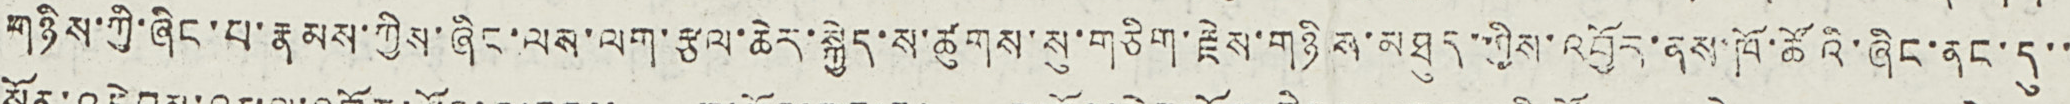གཉིས་ཀྱི་ཞིང་པ་རྣམས་ཀྱིས་ཞིང་ལས་ལག་རྩལ་ཆེར་སྐྱེད་ས་ཚུགས་སུ་གཅིག་རྗེས་གཉིས་མཐུད་ཀྱིས་འབྱོར་ནས་ཁོ་ཚོའི་ཞིང་ནང་དུ་་
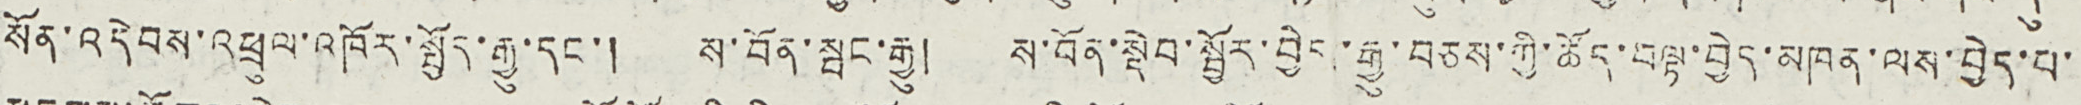སོན་འདེབས་འཕྲུལ་འཁོར་སྤྱོད་རྒྱུ་དང་། ས་བོན་སྦང་རྒྱུ། ས་བོན་སྡེབ་སྦྱོར་བྱེད་རྒྱུ་བཅས་ཀྱི་ཚོད་བལྟ་བྱེད་མཁན་ལས་བྱེད་པ་
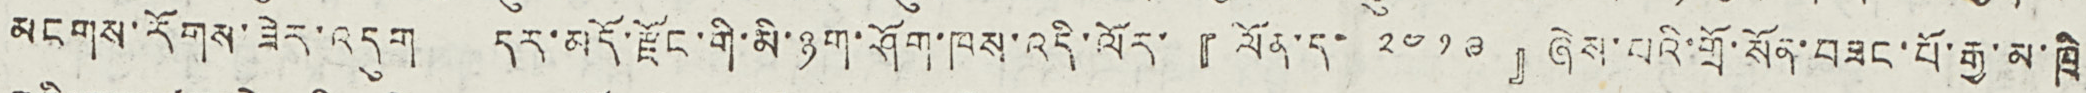མངགས་རོགས་ཟེར་འདུག དར་མདོ་རྫོང་གི་མི་ཉག་ཤོག་ཁས་འདི་ལོར་『ལོན་ད་ ༢༤༡༩ 』ཞེས་པའི་གྲོ་སོན་བཟང་པོ་རྒྱ་མ་ཁྲི
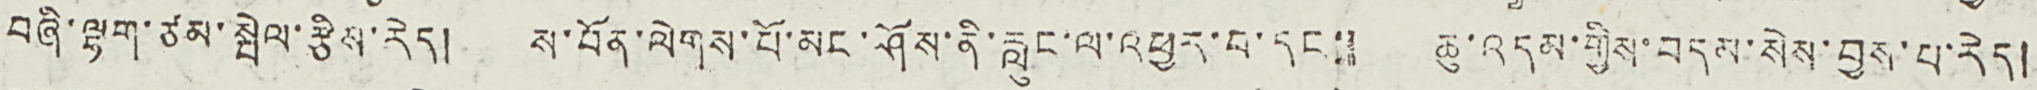བཞི་ལྷག་ཙམ་སྤེལ་རྩིས་རེད། ས་བོན་ལེགས་པོ་མང་ཤོས་ནི་རླུང་ལ་འཕྱར་བ་དང་། ཆུ་འདམ་གྱིས་བདམ་སེས་བྱས་པ་རེད།
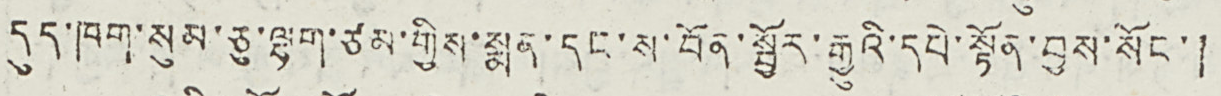དུད་ཁག་སུམ་ཅུ་ལྷག་ཙམ་གྱིས་སྨན་དང་ས་བོན་སྦྱོར་རྒྱུའི་དཔེ་སྟོན་བྱས་སོང་།
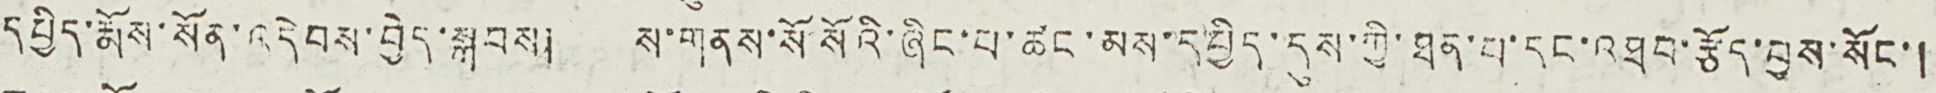དཔྱིད་རྨོས་སོན་འདེབས་བྱེད་སྐབས། ས་གནས་སོ་སོའི་ཞིང་པ་ཚང་མས་དཔྱིད་དུས་ཀྱི་ཐན་པ་དང་འཐབ་རྩོད་བྱས་སོང་།
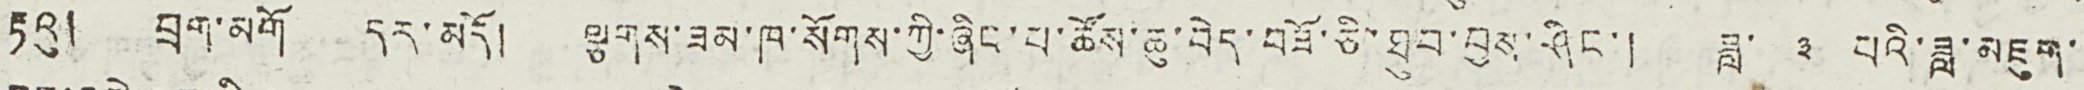རྟའུ། བྲག་མགོ དར་མདོ། ལྕགས་ཟམ་ཁ་སོགས་ཀྱི་ཞིང་པ་ཚོས་ཆུ་བདེ་བཟོ་ཅི་ཐུབ་བྱས་ཤིང་། ཟླ་ ༣ པའི་ཟླ་མཇུག་
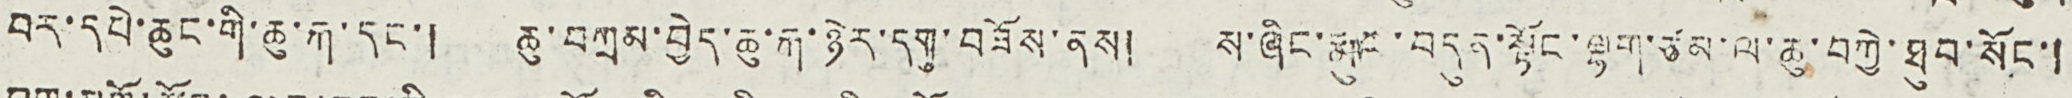བར་དཔེ་ཆུང་གི་ཆུ་རྐ་དང་། ཆུ་བཀྲམ་བྱེད་ཆུ་རྐ་ཉེར་དགུ་བཟོས་ནས། ས་ཞིང་རྨུང་བདུན་སྟོང་ལྷག་ཙམ་ལ་ཆུ་བཀྱེ་ཐུབ་སོང་།
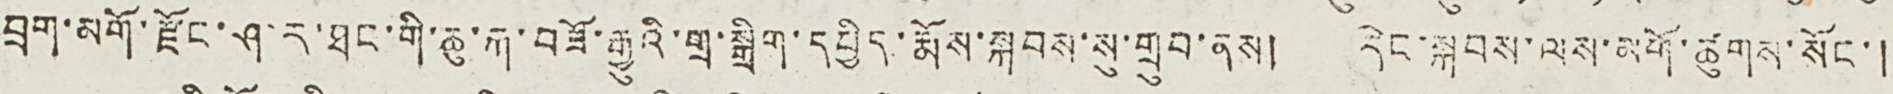བྲག་མགོ་རྫོང་ཤ་ར་ཐང་གི་ཆུ་རྐ་བཟོ་རྒྱུའི་གྲ་སྒྲིག་དཔྱིད་རྨོས་སྐབས་སུ་གྲུབ་ནས། དེང་སྐབས་ལས་མགོ་ཚུགས་སོང་།
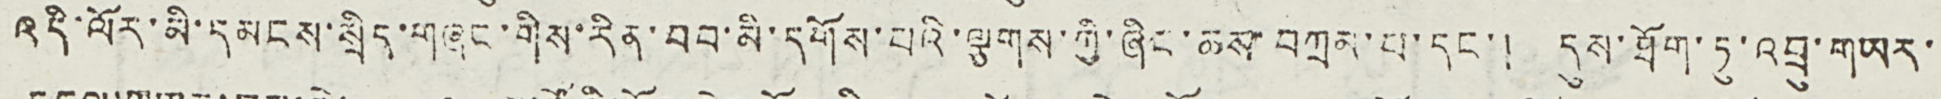འདི་ལོར་མི་དམངས་སྲིད་གཞུང་གིས་རིན་བབ་མི་དགོས་པའི་ལྕགས་ཀྱི་ཞིང་ཆས་བཀྲམ་པ་དང་། དུས་ཐོག་ཏུ་འབྲུ་གཡར་
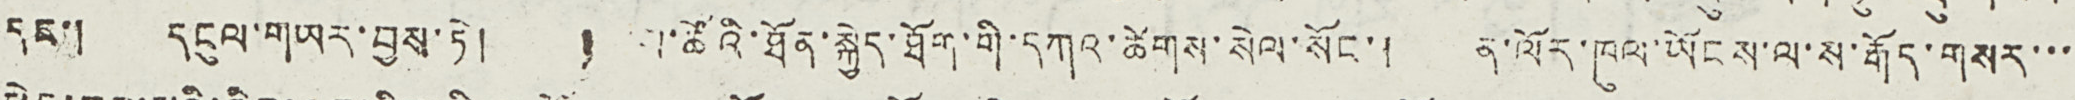དང་། དངུལ་གཡར་བྱས་ཏེ། ཡུལ་ཚོའི་ཐོན་སྐྱེད་ཐོག་གི་དཀའ་ཚེགས་སེལ་སོང་། ན་ལོར་ཁུལ་ཡོངས་ལ་ས་རྒོད་གསར་་་
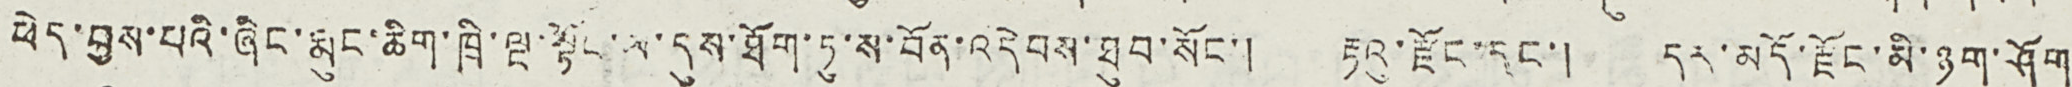ཕེད་བྱས་པའི་ཞིང་རྨུང་ཆིག་ཁྲི་ལྔ་སྟོང་ལ་དུས་ཐོག་ཏུ་ས་བོན་འདེབས་ཐུབ་སོང་། རྟའུ་རྫོང་དང་། དར་མདོ་རྫོང་མི་ཉག་ཤོག་
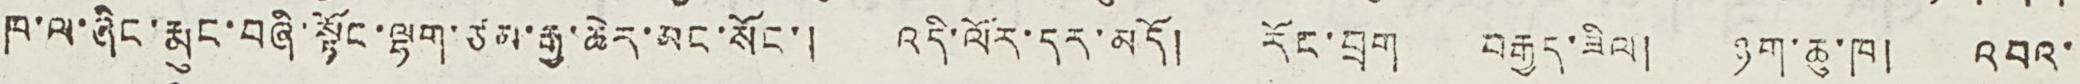ཁ་ལ་ཞིང་རྨུང་བཞི་སྟོང་ལྷག་ཙམ་རྒྱ་ཆེར་མང་སོང་། འདི་ལོར་དར་མདོ། རོང་བྲག བརྒྱད་ཟིལ། ཉག་ཆུ་ཁ། འབའ་
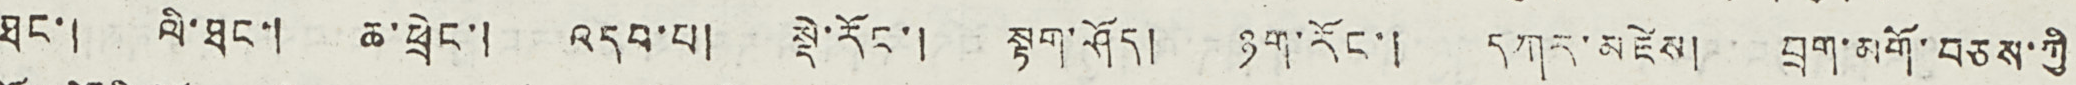ཐང་། ལི་ཐང་། ཆ་ཕྲེང་། འདབ་པ། སྡེ་རོང་། སྟག་ཤོད། ཉག་རོང་། དཀར་མཛེས། བྲག་མགོ་བཅས་ཀྱི
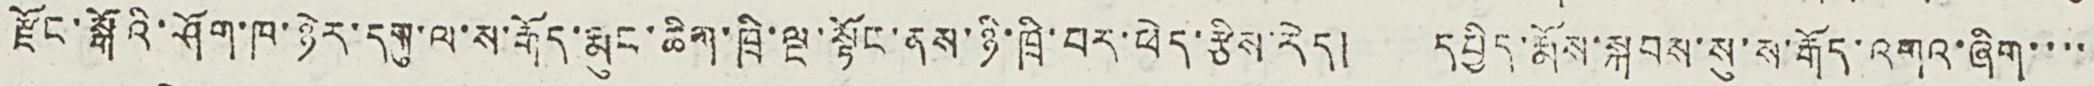རྫོང་སྒོའི་ཤོག་ཁག་ཉེར་དགུ་ལ་ས་རྒོད་རྨུང་ཆིག་ཁྲི་ལྔ་སྟོང་ནས་ཉི་ཁྲི་བར་ཕེད་རྩིས་རེད། དཔྱིད་རྨོས་སྐབས་སུ་ས་རྒོད་འགའ་ཞིག་་་་
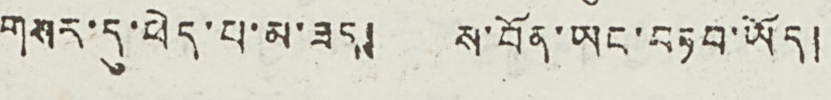གསར་དུ་ཕེད་པ་མ་ཟད། ས་བོན་ཡང་བཏབ་ཡོད།
